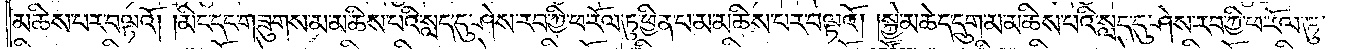མཆིས་པར་བལྟའོ། །མིང་དང་གཟུགས་མ་མཆིས་པའི་སླད་དུ་ཤེས་རབ་ཀྱི་ཕ་རོལ་ཏུ་ཕྱིན་པ་མ་མཆིས་པར་བལྟའོ། །སྐྱེ་མཆེད་དྲུག་མ་མཆིས་པའི་སླད་དུ་ཤེས་རབ་ཀྱི་ཕ་རོལ་ཏུ་
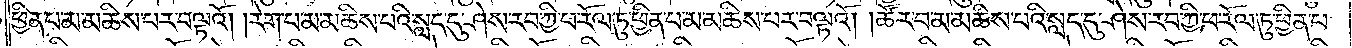ཕྱིན་པ་མ་མཆིས་པར་བལྟའོ། །རེག་པ་མ་མཆིས་པའི་སླད་དུ་ཤེས་རབ་ཀྱི་ཕ་རོལ་ཏུ་ཕྱིན་པ་མ་མཆིས་པར་བལྟའོ། །ཚོར་བ་མ་མཆིས་པའི་སླད་དུ་ཤེས་རབ་ཀྱི་ཕ་རོལ་ཏུ་ཕྱིན་པ་
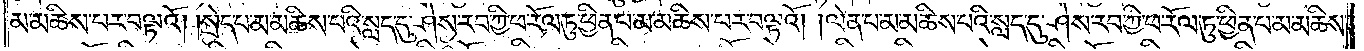མ་མཆིས་པར་བལྟའོ། །སྲེད་པ་མ་མཆིས་པའི་སླད་དུ་ཤེས་རབ་ཀྱི་ཕ་རོལ་ཏུ་ཕྱིན་པ་མ་མཆིས་པར་བལྟའོ། །ལེན་པ་མ་མཆིས་པའི་སླད་དུ་ཤེས་རབ་ཀྱི་ཕ་རོལ་ཏུ་ཕྱིན་པ་མ་མཆིས་
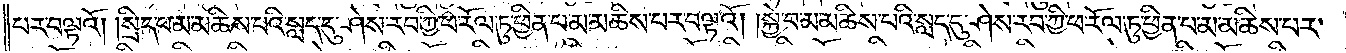པར་བལྟའོ། །སྲིད་པ་མ་མཆིས་པའི་སླད་དུ་ཤེས་རབ་ཀྱི་ཕ་རོལ་ཏུ་ཕྱིན་པ་མ་མཆིས་པར་བལྟའོ། །སྐྱེ་བ་མ་མཆིས་པའི་སླད་དུ་ཤེས་རབ་ཀྱི་ཕ་རོལ་ཏུ་ཕྱིན་པ་མ་མཆིས་པར་
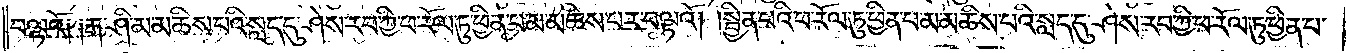བལྟའོ༑ ༑རྒ་ཤི་མ་མཆིས་པའི་སླད་དུ་ཤེས་རབ་ཀྱི་ཕ་རོལ་ཏུ་ཕྱིན་པ་མ་མཆིས་པར་བལྟའོ། །སྦྱིན་པའི་ཕ་རོལ་ཏུ་ཕྱིན་པ་མ་མཆིས་པའི་སླད་དུ་ཤེས་རབ་ཀྱི་ཕ་རོལ་ཏུ་ཕྱིན་པ་
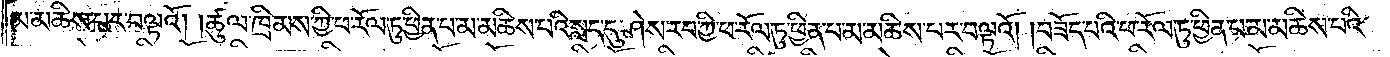མ་མཆིས་པར་བལྟའོ། །ཚུལ་ཁྲིམས་ཀྱི་ཕ་རོལ་ཏུ་ཕྱིན་པ་མ་མཆིས་པའི་སླད་དུ་ཤེས་རབ་ཀྱི་ཕ་རོལ་ཏུ་ཕྱིན་པ་མ་མཆིས་པར་བལྟའོ། །བཟོད་པའི་ཕ་རོལ་ཏུ་ཕྱིན་པ་མ་མཆིས་པའི་
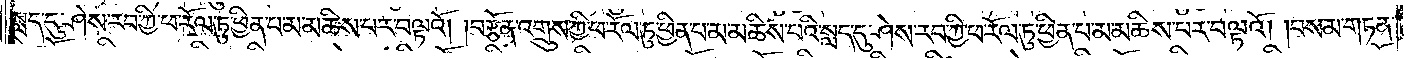སླད་དུ་ཤེས་རབ་ཀྱི་ཕ་རོལ་ཏུ་ཕྱིན་པ་མ་མཆིས་པར་བལྟའོ། །བརྩོན་འགྲུས་ཀྱི་ཕ་རོལ་ཏུ་ཕྱིན་པ་མ་མཆིས་པའི་སླད་དུ་ཤེས་རབ་ཀྱི་ཕ་རོལ་ཏུ་ཕྱིན་པ་མ་མཆིས་པར་བལྟའོ། །བསམ་གཏན་
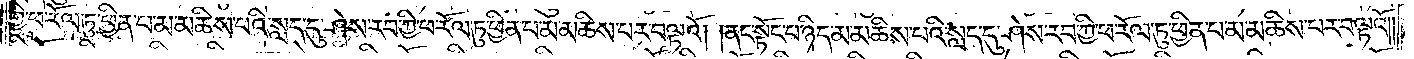གྱི་ཕ་རོལ་ཏུ་ཕྱིན་པ་མ་མཆིས་པའི་སླད་དུ་ཤེས་རབ་ཀྱི་ཕ་རོལ་ཏུ་ཕྱིན་པ་མ་མཆིས་པར་བལྟའོ། །ནང་སྟོང་པ་ཉིད་མ་མཆིས་པའི་སླད་དུ་ཤེས་རབ་ཀྱི་ཕ་རོལ་ཏུ་ཕྱིན་པ་མ་མཆིས་པར་བལྟའོ། །
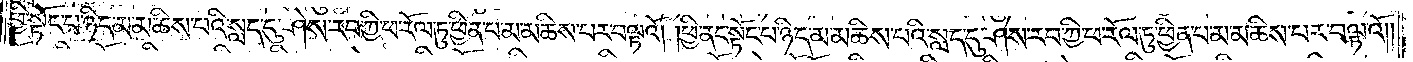ཕྱི་སྟོང་པ་ཉིད་མ་མཆིས་པའི་སླད་དུ་ཤེས་རབ་ཀྱི་ཕ་རོལ་ཏུ་ཕྱིན་པ་མ་མཆིས་པར་བལྟའོ། །ཕྱི་ནང་སྟོང་པ་ཉིད་མ་མཆིས་པའི་སླད་དུ་ཤེས་རབ་ཀྱི་ཕ་རོལ་ཏུ་ཕྱིན་པ་མ་མཆིས་པར་བལྟའོ། །
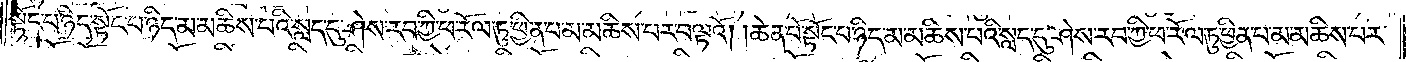སྟོང་པ་ཉིད་སྟོང་པ་ཉིད་མ་མཆིས་པའི་སླད་དུ་ཤེས་རབ་ཀྱི་ཕ་རོལ་ཏུ་ཕྱིན་པ་མ་མཆིས་པར་བལྟའོ། །ཆེན་པོ་སྟོང་པ་ཉིད་མ་མཆིས་པའི་སླད་དུ་ཤེས་རབ་ཀྱི་ཕ་རོལ་ཏུ་ཕྱིན་པ་མ་མཆིས་པར་
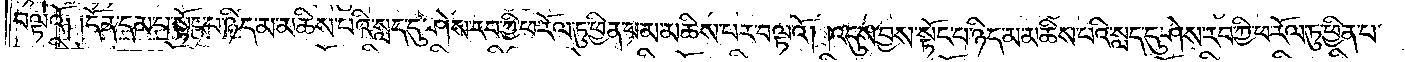བལྟའོ༑ ༑དོན་དམ་པ་སྟོང་པ་ཉིད་མ་མཆིས་པའི་སླད་དུ་ཤེས་རབ་ཀྱི་ཕ་རོལ་ཏུ་ཕྱིན་པ་མ་མཆིས་པར་བལྟའོ། །འདུས་བྱས་སྟོང་པ་ཉིད་མ་མཆིས་པའི་སླད་དུ་ཤེས་རབ་ཀྱི་ཕ་རོལ་ཏུ་ཕྱིན་པ་
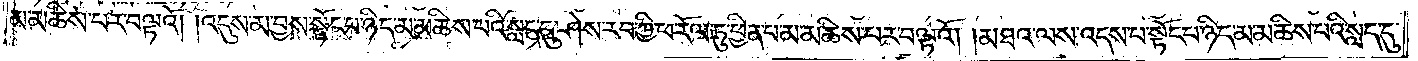མ་མཆིས་པར་བལྟའོ། །འདུས་མ་བྱས་སྟོང་པ་ཉིད་མ་མཆིས་པའི་སླད་དུ་ཤེས་རབ་ཀྱི་ཕ་རོལ་ཏུ་ཕྱིན་པ་མ་མཆིས་པར་བལྟའོ། །མཐའ་ལས་འདས་པ་སྟོང་པ་ཉིད་མ་མཆིས་པའི་སླད་དུ་
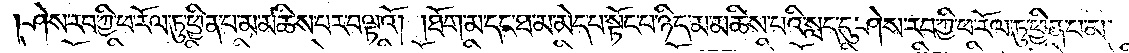ཤེས་རབ་ཀྱི་ཕ་རོལ་ཏུ་ཕྱིན་པ་མ་མཆིས་པར་བལྟའོ། །ཐོག་མ་དང་ཐ་མ་མེད་པ་སྟོང་པ་ཉིད་མ་མཆིས་པའི་སླད་དུ་ཤེས་རབ་ཀྱི་ཕ་རོལ་ཏུ་ཕྱིན་པ་མ་
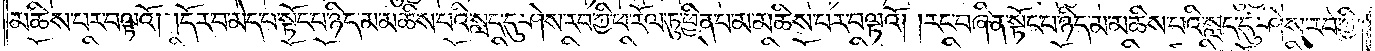མཆིས་པར་བལྟའོ། །དོར་བ་མེད་པ་སྟོང་པ་ཉིད་མ་མཆིས་པའི་སླད་དུ་ཤེས་རབ་ཀྱི་ཕ་རོལ་ཏུ་ཕྱིན་པ་མ་མཆིས་པར་བལྟའོ། །རང་བཞིན་སྟོང་པ་ཉིད་མ་མཆིས་པའི་སླད་དུ་ཤེས་རབ་ཀྱི་
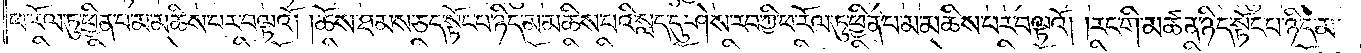ཕ་རོལ་ཏུ་ཕྱིན་པ་མ་མཆིས་པར་བལྟའོ། །ཆོས་ཐམས་ཅད་སྟོང་པ་ཉིད་མ་མཆིས་པའི་སླད་དུ་ཤེས་རབ་ཀྱི་ཕ་རོལ་ཏུ་ཕྱིན་པ་མ་མཆིས་པར་བལྟའོ། །རང་གི་མཚན་ཉིད་སྟོང་པ་ཉིད་མ་
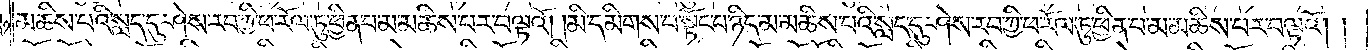མཆིས་པའི་སླད་དུ་ཤེས་རབ་ཀྱི་ཕ་རོལ་ཏུ་ཕྱིན་པ་མ་མཆིས་པར་བལྟའོ། །མི་དམིགས་པ་སྟོང་པ་ཉིད་མ་མཆིས་པའི་སླད་དུ་ཤེས་རབ་ཀྱི་ཕ་རོལ་ཏུ་ཕྱིན་པ་མ་མཆིས་པར་བལྟའོ། །
